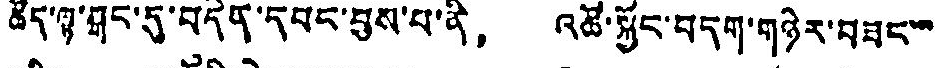ཆོད་ལྟ་སྒང་དུ་བདེན་དབང་བྱས་པ་ནི， འཚོ་སྐྱོང་བདག་གཉེར་བཟང་་་
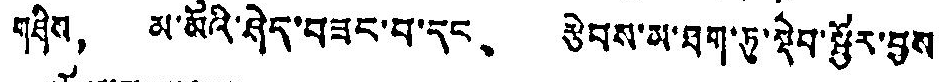གཤིས， མ་མོའི་ཤེང་བཟང་བ་དང、 རྩེབས་མ་ཐག་ཏུ་སྡེབ་སྦྱོར་བྱས
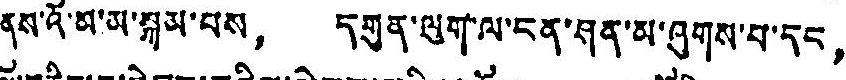ནས་འོ་མ་མ་སྐམ་པས， དགུན་ལུག་ལ་ངན་ཤན་མ་ཞུགས་པ་དང，
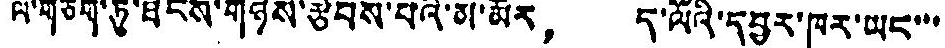ལོ་གཅིག་ཏུ་ཐེངས་གཉིས་རྩེབས་པའི་མ་མོར， ད་ལོའི་དབྱར་ཁར་ཡང་་་་
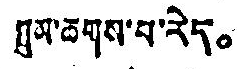ཁྲུམ་ཆགས་པ་རེད。
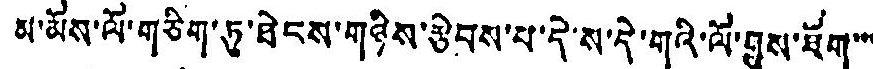མ་མོས་ལོ་གཅིག་ཏུ་ཐེངས་གཉིས་རྩེབས་པ་དེ་ས་དེ་གའི་ལོ་གྲུས་ཐོག་་་
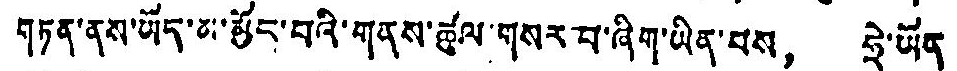གཏན་ནས་ཡོད་མ་མྱོང་བའི་གནས་ཚུལ་གསར་བ་ཞིག་ཡིན་པས， ཧྲེ་ཡོན་
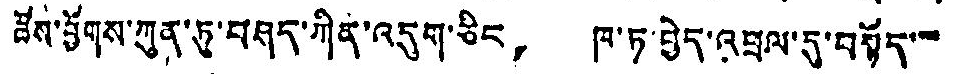ཟོས་ཕྱོགས་ཀུན་ཏུ་བཤད་ཀིན་འདུག་ཅིང， ཁ་ཏ་བྱེད་འབྲལ་དུ་བསྟོད་་་
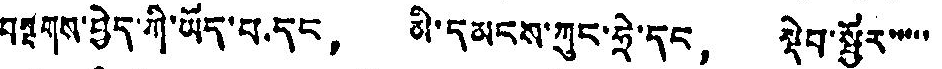བསྔགས་བྱེད་ཀི་ཡོད་པ་དང， མི་དམངས་ཀུང་ཧྲེ་དང， སྡེབ་སྦྱོར་་་་་
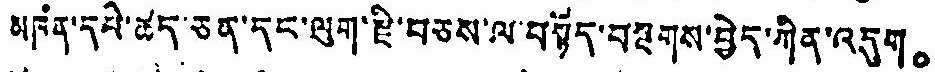མཁན་དཔེ་ཚད་ཅན་དང་ལུག་རྫི་བཅས་ལ་བསྟོད་བསྔགས་བྱེད་ཀིན་འདུག。
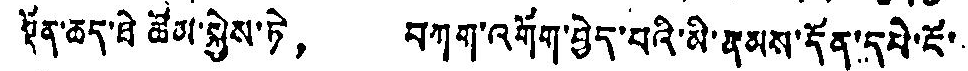སྡོན་ཆད་ཐེ ཚེམ་སྐྱེས་ཏེ， བཀག་འགོག་བྱེད་པའི་མི་རྣམས་དོན་དཔེ་ངོ་་
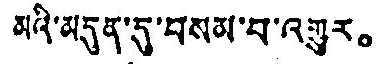མའི་མདུན་དུ་བསམ་པ་འགྱུར。
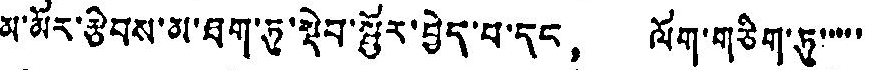མ་མོར་རྩིབས་མ་ཐག་ཏུ་སྡེབ་སྦྱོར་བྱེད་པ་དང， ལོག་གཅིག་ཏུ་་་་་
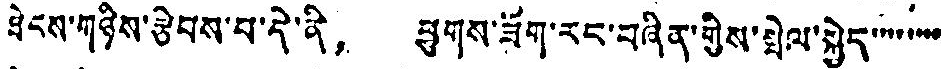ཐེངས་གཉིས་རྩེབས་པ་དེ་ནི， ཕྱུགས་ཟོག་རང་བཞིན་གྱིས་སྤེལ་སྐྱེད་་་་་་་་་
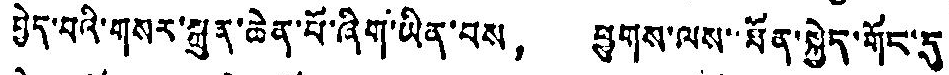བྱེད་པའི་གསར་སྐྲུན་ཆེན་པོ་ཞིག་ཡིན་པས， ཕྱུགས་ལས་་ཐོན་སྐྱེད་གོང་དུ་
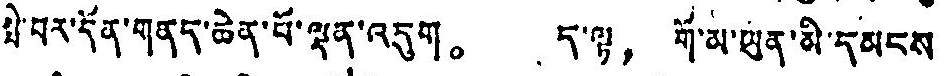སྤེ་བར་དོན་གནད་ཆེན་པོ་ལྡན་འདུག。 ད་ལྟ， གོ་མ་ཡུན་མི་དམངས་
